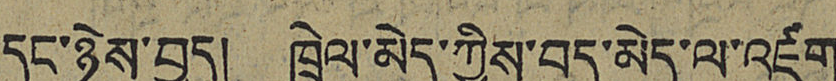དང་ཉེས་བྱད། ཁྲེལ་མེད་ཀྱིས་བུད་མེད་ལ་འཛག་
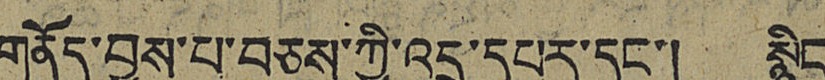གནོད་བྱས་པ་བཅས་ཀྱི་འདྲ་དཔར་དང་། སྙིང་
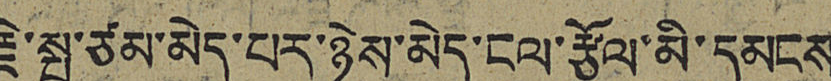རྗེ་སྤུ་ཙམ་མེད་པར་ཉེས་མེད་ངལ་རྩོལ་མི་དམངས
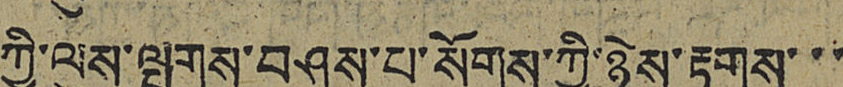ཀྱི་ལུས་སྤགས་བཤུས་པ་སོགས་ཀྱི་ཉེས་རྟགས་་་
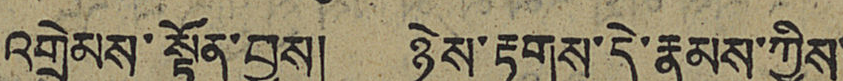འགྲེམས་སྟོན་བྱས། ཉེས་རྟགས་དེ་རྣམས་ཀྱིས་
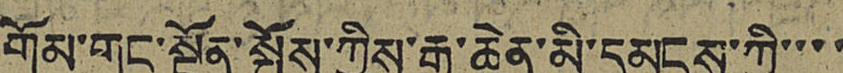གོམ་གང་སྔོན་སྤོས་ཀྱིས་རྒྱ་ཆེན་མི་དམངས་ཀྱི་་་་
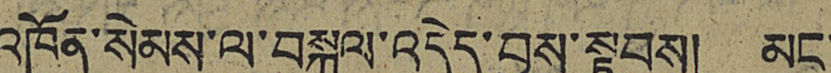འཁོན་སེམས་ལ་བསྐུལ་འདེད་བྱས་སྟབས། མང་
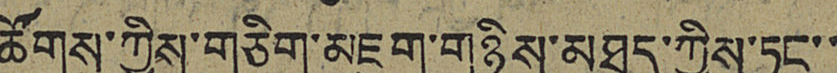ཚོགས་ཀྱིས་གཅིག་མཇུག་གཉིས་མཐུད་ཀྱིས་ཏང་་
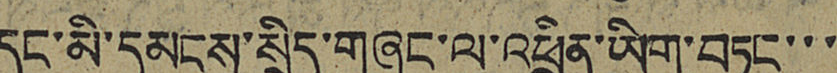དང་མི་དམངས་སྲིད་གཞུང་ལ་འཕྲིན་ཡིག་བཏང་་་
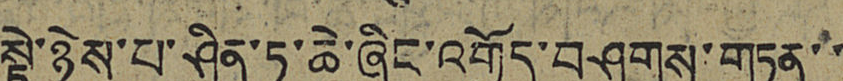སྟེ་ཉེས་པ་ཤིན་ཏུ་ཆེ་ཞིང་འགྱོད་བཤགས་གཏན་་
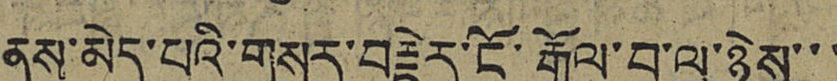ནས་མེད་པའི་གསར་བརྗེར་ངོ་ཏགོལ་བ་ལ་ཉེས་་་
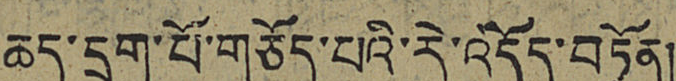ཆད་དྲག་པོ་གཅོད་པའི་རེ་འདོད་བཏོན།
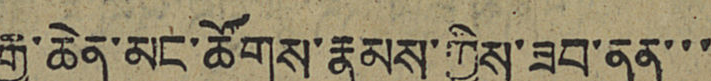རྒྱ་ཆེན་མང་ཚོགས་རྣམས་ཀྱིས་ཟབ་ནན་་་
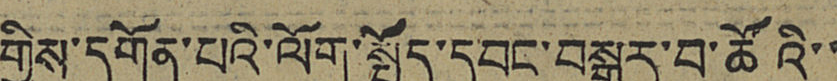གྱིས་དགོན་པའི་ལོག་སྤྱོད་དབང་བསྒྱུར་བ་ཚོའི་་
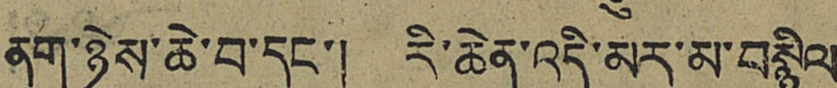ནག་ཉེས་ཆེ་བ་དང་། རི་ཆེན་འདི་མར་མ་བསྙིལ་
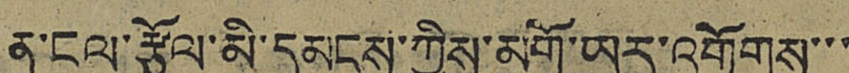ན་ངལ་རྩོལ་མི་དམངས་ཀྱིས་མགོ་ཡར་འགྱོགས་་་
